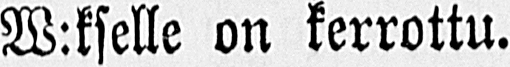W:kselle on kerrottu.
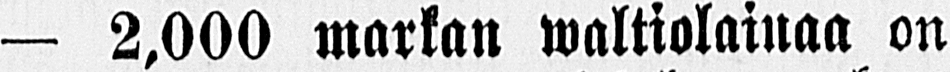— 2,000 markan waltiolainaa on
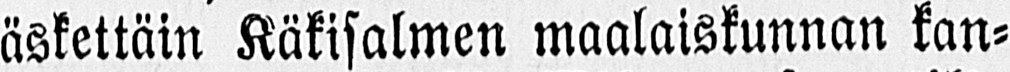äskettäin Käkisalmen maalaiskunnan kan-
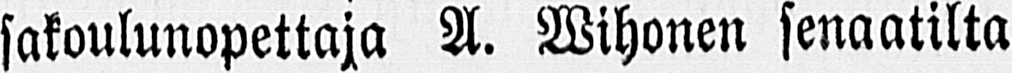sakoulunopettaja A. Wihonen senaatilta
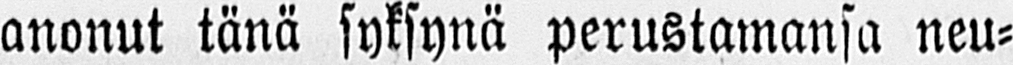anonut tänä syksynä perustamansa neu-
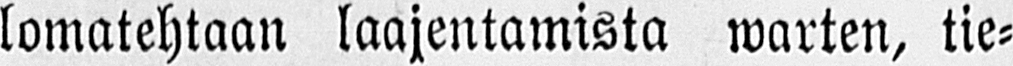lomatehtaan laajentamista warten, tie-
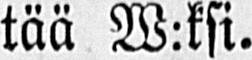tää W:ksi.
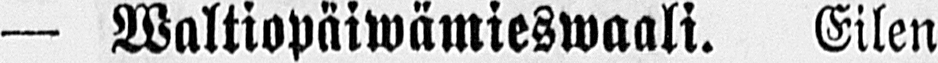— Waltiopäiwämieswaali. Eilen
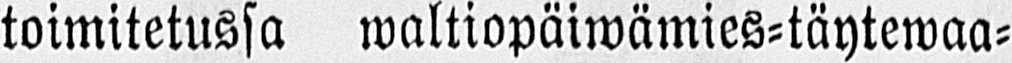toimitetussa waltiopäiwämies-täytewaa-
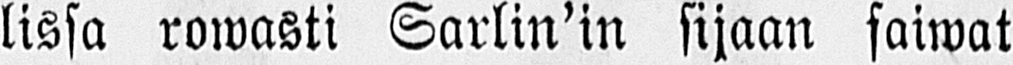lissa rowasti Sarlin’in sijaan saiwat
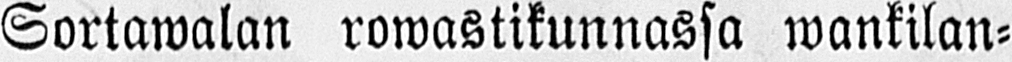Sortawalan rowastikunnassa wankilan-
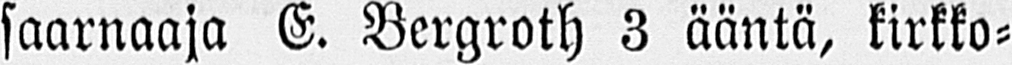saarnaaja E. Bergroth 3 ääntä, kirkko-
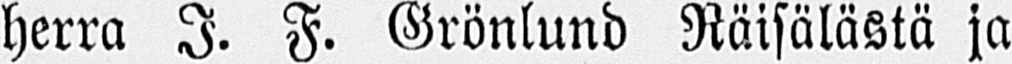herra I. F. Grönlund Räisälästä ja
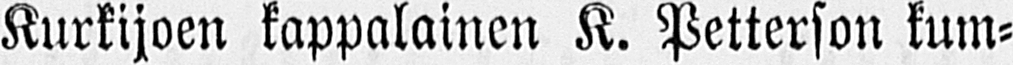Kurkijoen kappalainen K. Petterson kum-
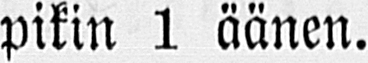pikin 1 äänen.
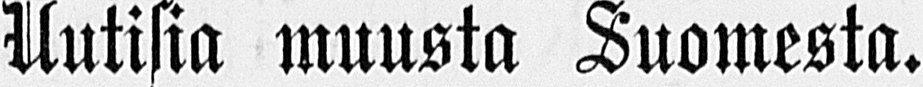Uutisia muusta Suomesta.
